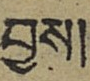བྱས།
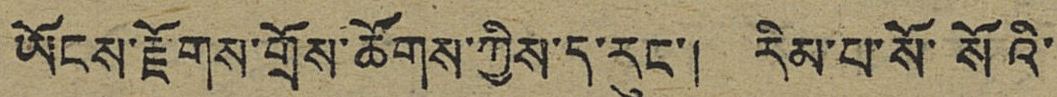ཡོངས་རྫོགས་གྲོས་ཚོགས་ཀྱིས་ད་རུང་། རིམ་པ་སོ་སོའི་
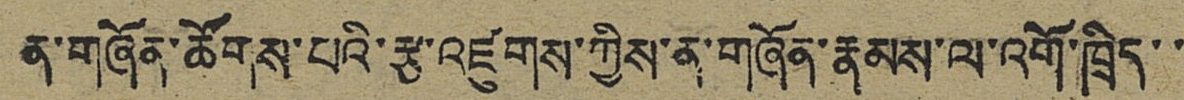ན་གཞོན་ཚོགས་པའི་རྩ་འཛུགས་ཀྱིས་ན་གཞོན་རྣམས་ལ་འགོ་ཁྲིད་་
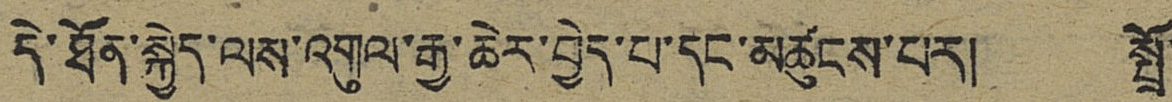དེ་ཐོན་སྐྱེད་ལས་འགུལ་རྒྱ་ཆེར་བྱེད་པ་དང་མཚུངས་པར། སྤྲོ་
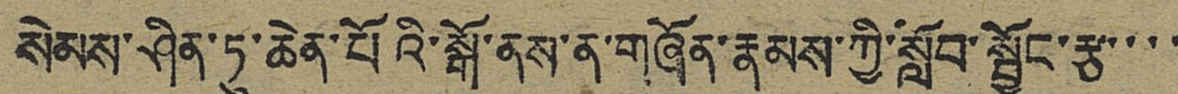སེམས་ཤིན་ཏུ་ཆེན་པོའི་སྒོ་ནས་ན་གཞོན་རྣམས་ཀྱི་སློབ་སྦྱོང་རྩ་་་་
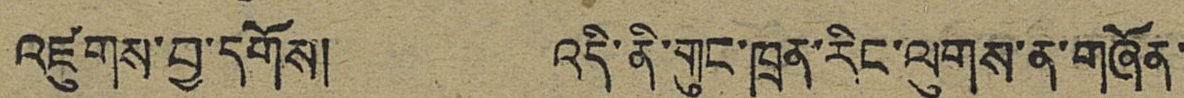འཛུགས་བྱ་དགོས། འདི་ནི་གུང་ཁྲན་རིང་ལུགས་ན་གཞོན་
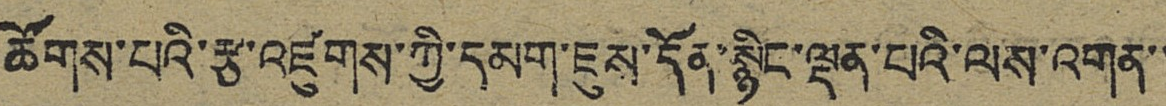ཚོགས་པའི་རྩ་འཛུགས་ཀྱི་དམག་ཇུས་དོན་སྙིང་ལྡན་པའི་ལས་འགན་་
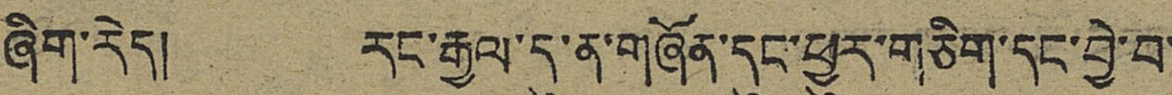ཞིག་རེད། རང་རྒྱལ་དུ་ན་གཞོན་དུང་ཕྱུར་གཅིག་དང་བྱེ་བ་
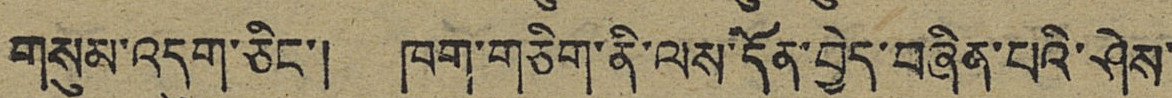གསུམ་འདུག་ཅིང་། ཁག་གཅིག་ནི་ལས་དོན་བྱེད་བཞིན་པའི་ཤེས་
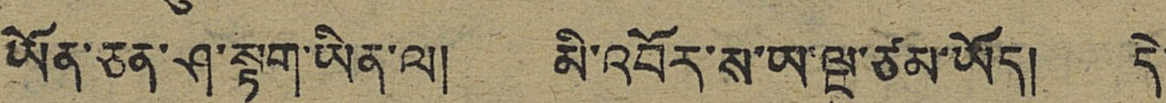ཡོན་ཅན་ཤ་སྟག་ཡིན་ལ། མི་འབོར་ས་ཡ་ལྔ་ཙམ་ཡོད། དེ་
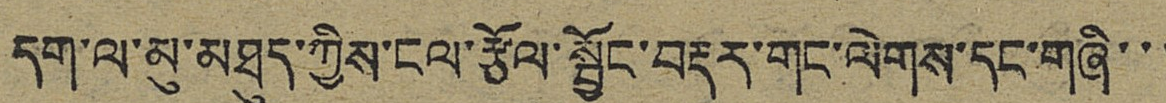དག་ལ་མུ་མཐུད་ཀྱིས་ངལ་རྩོལ་སྦྱོང་བརྡར་གང་ལེགས་དང་གཞི་་་
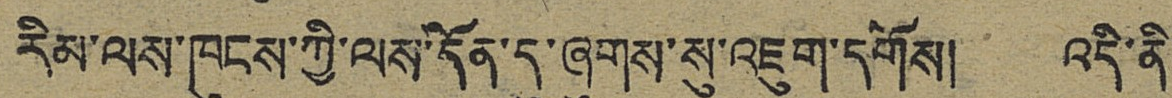རིམ་ལས་ཁུངས་ཀྱི་ལས་དོན་དུ་ཞུགས་སུ་འཇུག་དགོས། འདི་ནི་
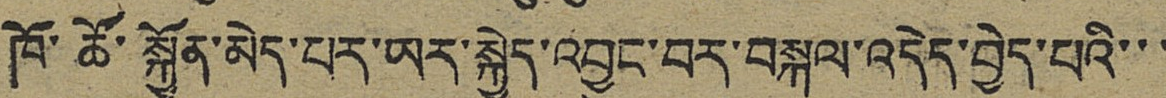ཁོ་ཚོ་སྐྱོན་མེད་པར་ཡར་སྐྱེད་འབྱུང་བར་བསྐུལ་འདེད་བྱེད་པའི་་་
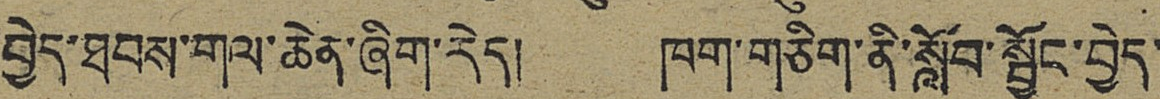བྱེད་ཐབས་གལ་ཆེན་ཞིག་རེད། ཁག་གཅིག་ནི་སློབ་སྦྱོང་བྱེད་
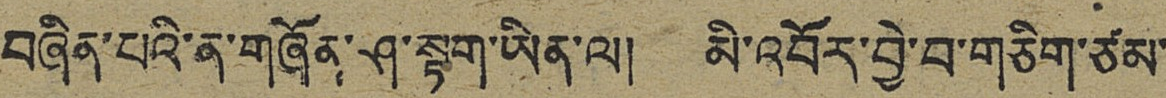བཞིན་པའི་ན་གཞོན་ཤ་སྟག་ཡིན་ལ། མི་འབོར་བྱེ་བ་གཅིག་ཙམ་
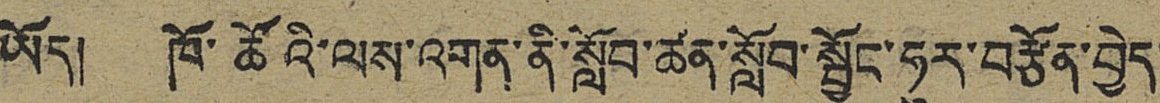ཡོད། ཁོ་ཚོའི་ལས་འགན་ནི་སློབ་ཚན་སློབ་སྦྱོང་ཧུར་བརྩོན་བྱེད་
